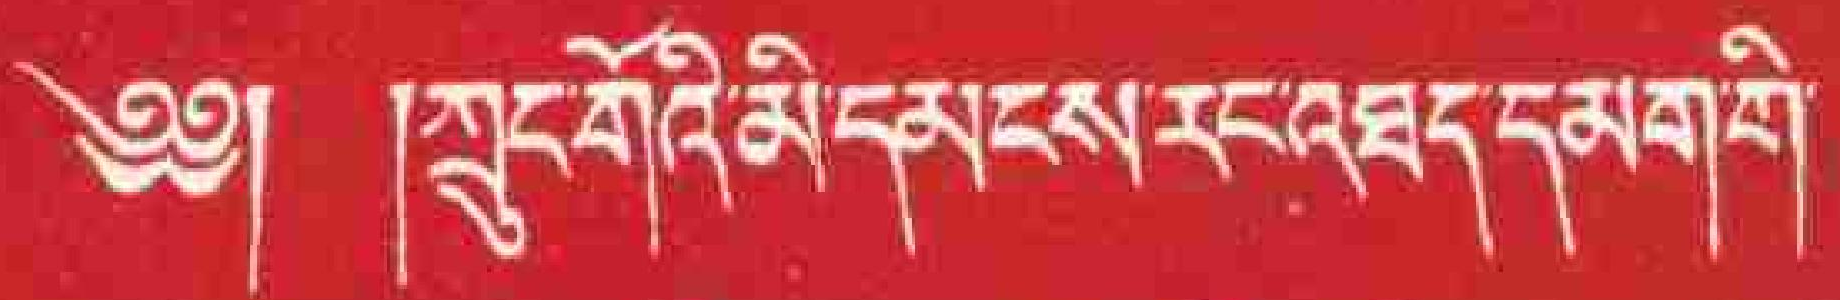༄༅། །ཀྲུང་གོའི་མི་དམངས་རང་འཐད་དམག་གི་
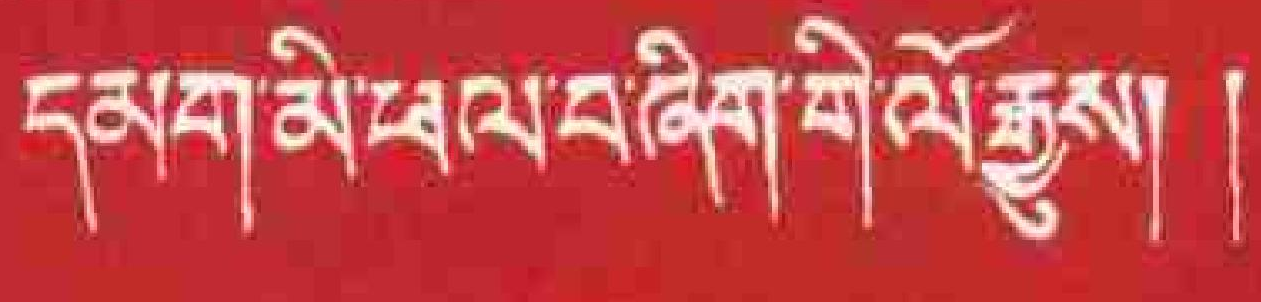དམག་མི་ཕལ་བ་ཞིག་གི་ལོ་རྒྱུས། །
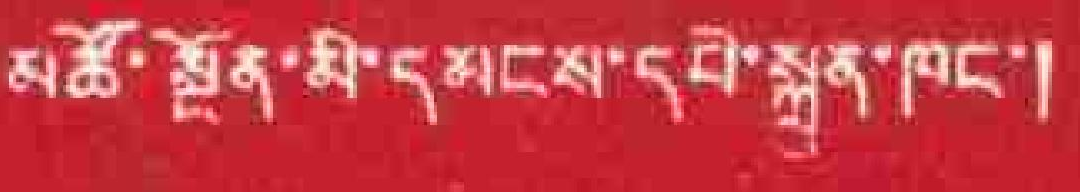མཚོ་སྔོན་མི་དམངས་དཔེ་སྐྲུན་ཁང་།
